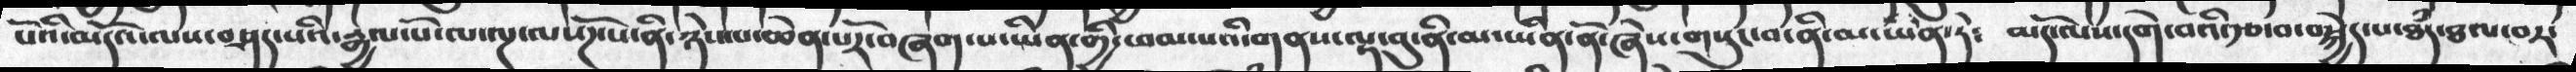པོའི་མདོ་ལས་བཤད་པའི་རྒྱལ་པོ་ལ་ལྔ་ལ་སོཌ་པ་ནི་ཉེས་པ་ཆེན་པོར་བཞག་པ་ཡིན་གྱི་ཕམ་པའི་གནས་ལྟ་བུ་ནི་མ་ཡིན་ནོ་ཞེས་གསུང་བ་ནི་མ་ཡིན་ཏེ༴   མདོ་ལས་དགེ་བའི་རྩ་བ་བསྐྱེད་པ་ཐྃད་ཐལ་བར་
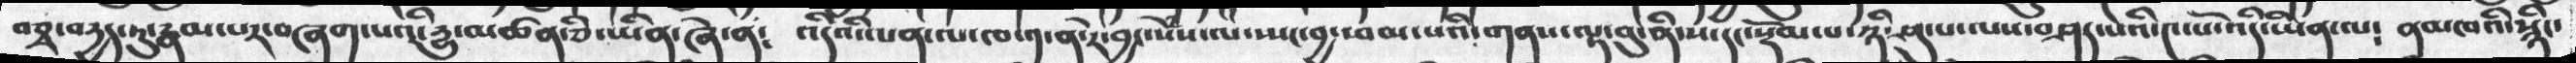བཅྭ་བདྱད་ཏུ་རྣམ་པར་བཞག་པའི་དྱུ་མཚན་ཅི་ཡིན་ཞེ་ན༴ འདིའི་ལན་ལ་ཁ་༡་ན་རེ་བྱང་སེཾས་ལ་ཡང་བྱ་ཕམ་པའི་གནས་ལྟ་བུ་ནི་ས་དང་སྡོམ་པ་ཉི་ཤུ་པ་ལས་བཤད་པའི་༤་པོ་འདི་ཡིན་ལ༴ ནམཁའི་སྙིང་
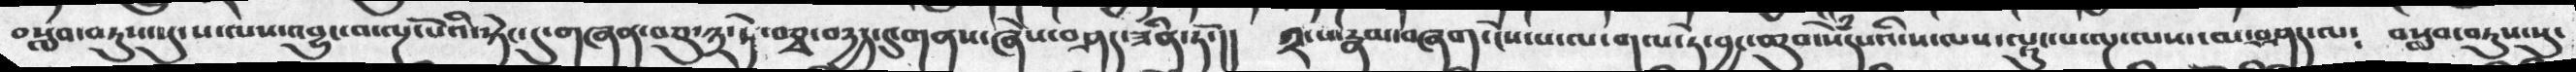བསླབ་བཏུས་སུ་པ་ལས་འབྱུང་བ་ལྔ་པོའི་སྟེང་དུ་གཞན་བཅུ་༣་ཏེ་བཅྭ་བརྱད་དུ་གནས་ཞེས་བཤད་ཟིན་ཏོ་།།  ༢་པ་རྣམ་བཞག་ངེས་པ་ལ་གལ་ཏེ་བྱང་ཆུབ་སེཾདཔའི་ས་ལས་ལྟུང་པ་ལྔ་ལས་མ་བཤད་ལ༴  བསླབ་བཏུས་སུ་
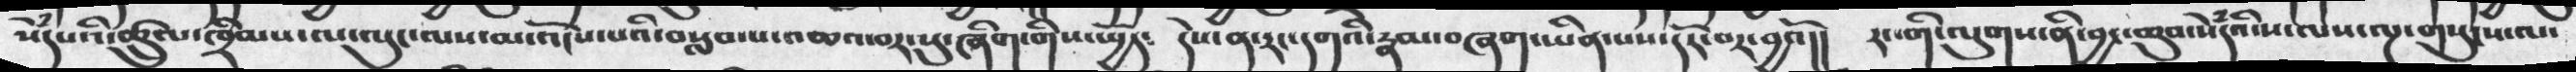སེཾདཔའི་ཚྲུལ་ཁྲིམས་ལ་ལུང་ལས་མ་འོངས་པའི་བསླབ་པ་འཆའ་བར་སུ་ཞིག་གིས་སྤྱོད༴ དེས་ན་རང་དགའི་རྣམ་བཞག་ཡིན་པས་དོར་བར་བྱའོ།། རང་གི་ལུགས་ནི་བྱང་ཆུབ་སེཾདའི་ས་ལས་ལྔ་གསུངས་ལ་
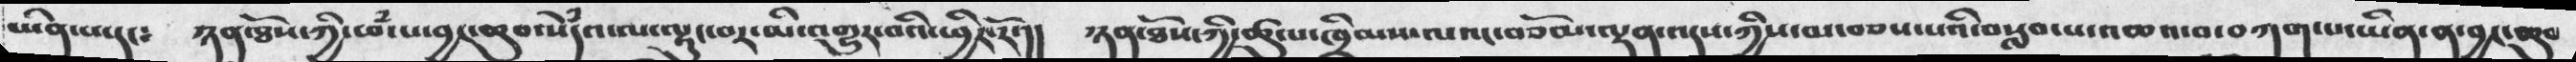ཡིན་པ་དང༴ ཉན་ཐོས་ཀྱི་ཕཾ་པ་བྱང་ཆུབ་སེཾདའ་ལ་ལྟུང་བར་མི་འགྱུར་བའི་ཕྱིར་རོ་།། ཉན་ཐོས་ཀྱི་ཚུལ་ཁྲིམས་ལའང་བཅོམ་ལྡན་འདས་ཀྱིས་མ་བཅས་པའི་བསླབ་པ་འཆའ་བ་བཀག་པ་ཡིན་ན་བྱང་ཆུབ
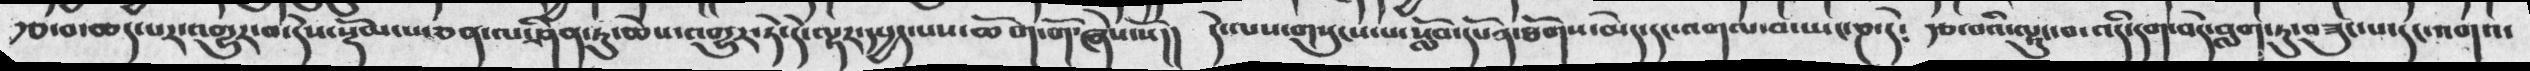རྩ་བ་ཆད་པར་འགྱུར་བ་དེས་སྡོམ་པ་ཅན་ལ་ཤིན་ཏུ་ཆེས་འགྱུར་ཏེ་དེ་ལྟར་དཔྱད་པས་ཆོག་གོ་ཞེས་སོ།། དེ་ལས་གསུངས་པ་སློབ་དཔོན་ཐོགས་མེད་དང་འགལ་བ་ཡང་ཎ་དེ༴ རྩ་བའི་ལྟུང་བ་འདི་དག་བདེ་བླག་ཏུ་བཟུང་པ་དང་འགའ་
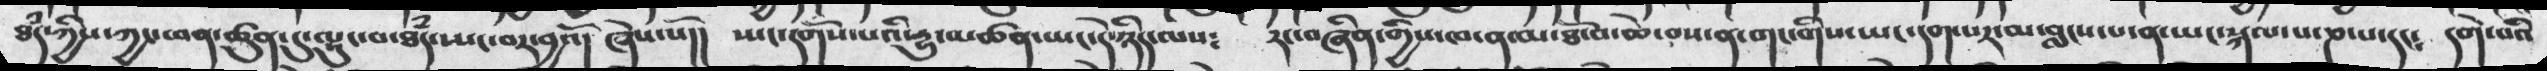ཐཾད་ཀྱིས་ཀྱང་ཕན་ཚུན་དུ་ལྟུང་བ་ཐཾདསྤང་བར་བྱའོ། ཞེས་སོ།། ཡང་དགོས་པའི་དྱུ་མཚན་ཡང་དེ་ཉིད་ལས༴ རང་བཞིན་གྱིས་ཁ་ན་མ་ཐོ་བ་ཆེ་བས་ན་གང་གིས་ཡང་དག་པར་མ་བླངས་པ་ན་ཡང་སྐལ་པ་ཎ་པ་དང༴ དགེ་བའི
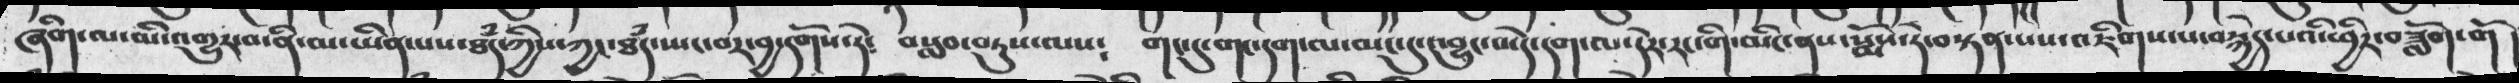ཞིག་ལ་མི་འགྱུར་བ་ནི་མ་ཡིན་པས་ཐཾད་ཀྱིས་ཀྱང་ཐཾད་སྤང་བར་བྱ་དགོས་ཏེ༴ བསླབ་བཏུས་ལས༴ གང་དུ་གང་དག་ལ་མང་དུ་འབྱུང་བ་དེ་དག་ལ་དེར་རང་གི་མིང་ནས་སྨོས་ཏེ་བསྟན་པས་འཇིགས་པ་བསྐྱེད་པའི་ཕྱིར་བཟློག་གོ
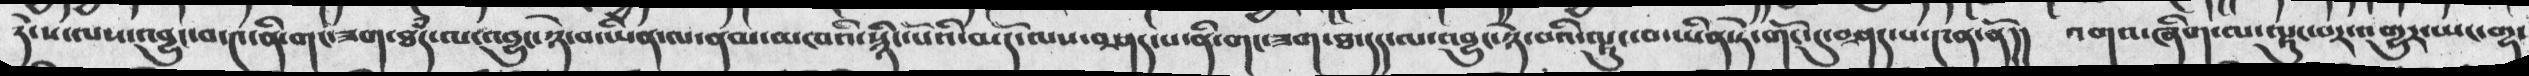དེ་ས་ལས་འབྱུང་བ་༤་ནི་གང་ཟག་ཐཾད་ལ་འབྱུང་ཉེ་བ་ཡིན་ལ་ནམ་མཁའི་སྙིང་པོའི་མདོ་ལས་བཤད་པ་ནི་གང་ཟག་ཐ་དད་ལ་འབྱུང་ཉེ་བའི་ལྟུང་བ་ཡིན་ཏེ་གོང་དུ་བཤད་པ་༤ན་ནོ།། འགའ་ཞིག་ལ་ལྟུང་བར་འགྱུར་ཡང་གྷ་
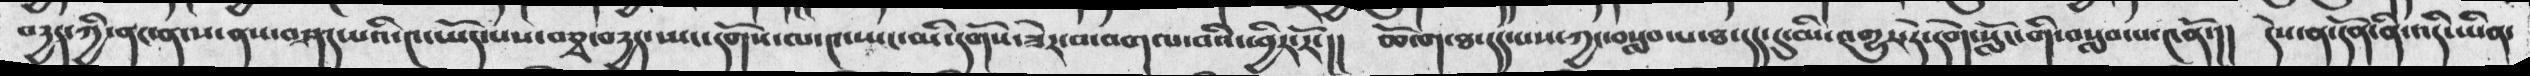བདྱད་ཀྱི་ནང་ནས་ས་ནས་བཤད་པའི་༤་ཡོད་པས་བཅྭ་བདྱད་ཡང་དགོས་ལ་༤་ཡང་མི་དགོས་ཟེར་བ་འགལ་བའི་ཕྱིར་རོ་།། ཆོ་ག་ཐ་དད་དུ་མི་འགྱུར་ཏེ་དགེ་སློང་གི་བསླབ་པ་༤ནོ་།། དེས་ན་དོན་ནི་འདི་ཡིན་
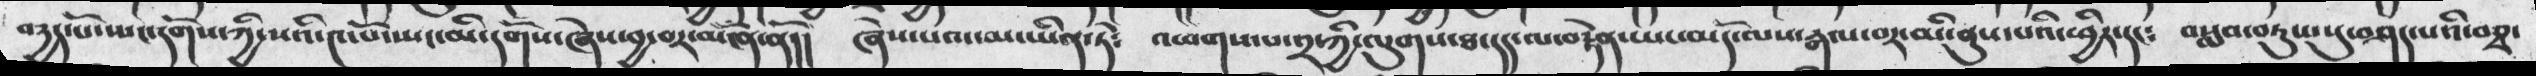བདྱད་པོ་ཡང་དགོས་ཀྱི་སའི་༤་པོ་ཡང་མི་དགོས་ཞེས་བྱ་བར་མངོན་ནོ།། ཞེས་པའང་མ་ཡིན་ཏེ༴  འཕགས་པ་༢་ཀྱི་ལུགས་ཐ་དད་ལ་བརྟེན་ཡང་མདོ་ལས་རྒལ་བར་མི་ནུས་པའི་ཕྱིར་དང༴  བསླབ་བཏུས་སུ་བཤད་པའི་བཅྭ་
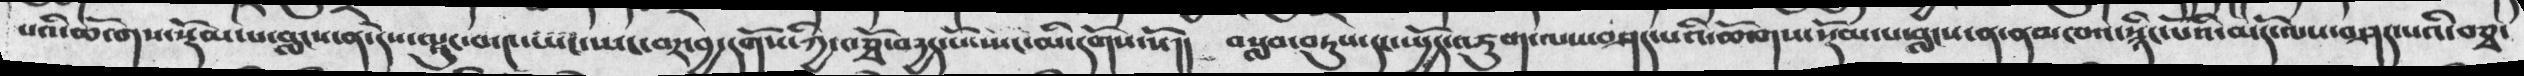པའི་ཆོ་གས་སྡོམ་པ་བླངས་ན་དེས་ལྟུང་བ་༤་ཡང་ཡང་བར་བྱ་དགོས་ཀྱི་བཅྭོ་བདྱད་པོ་ཡང་མི་དགོས་སོ།། བསླབ་བཏུས་དང་སྤྱོད་འཇུག་ལས་བཤད་པའི་ཆོ་གས་སྡོམ་པ་བླངས་ན་ནམཁའི་སྙིང་པོའི་མདོ་ལས་བཤད་པའི་བཅྭ་
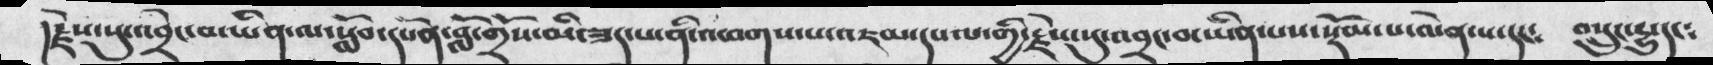།རྗེས་སུ་འབྲེང་བ་ཡིན་ལ་སློབ་དཔོན་བློ་གྲོས་མི་ཟད་པ་ནི་འཕགས་པ་འཇམ་དཔལ་གྱི་རྗེས་སུ་འབྲང་བ་ཡིན་པས་སྡོམ་པ་ལེན་པ་དང༴ བསྲུང་དྱུ་དང༴
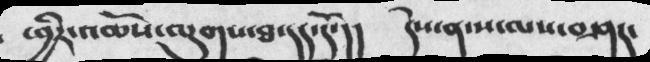ཕྱིར་ཆོས་ལུགས་ཐ་དད་དོ་།། དེས་ན་ས་ལས་བཤད་
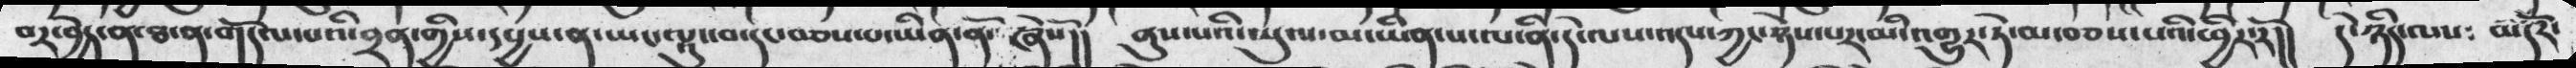བར་བྱེད་ན་ཐ་ན་གདོལ་པའི་བྲན་གྱིས་དཔྱས་ན་ཡང་ལྟུང་བ་དང་བཅས་པ་ཡིན་ནོ་ཞེསོ།། ནུས་པའི་ཡུལ་མ་ཡིན་པ་ལ་ནི་དེ་ལས་འདས་ཀྱང་ཉེས་པར་མི་འགྱུར་ཏེ་མ་བཅས་པའི་ཕྱིར་རོ།། དེ་ཉིད་ལས༴ མདོར་
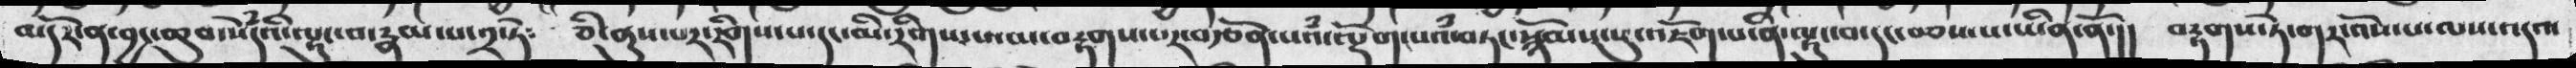མདོར་ན་བྱང་ཆུབ་སེཾདའི་ལྟུང་བ་རྣམ་པ་༢་ཏེ༴  ཅི་ནུས་པར་རིགས་པ་དང་མི་རིགས་པ་མ་བརྟགས་པར་བརྩོན་པའཾ་བཏང་སྙོམས་སུ་འཇོག་པ་ནི་ལྟུང་བ་དང་བཅས་པ་ཡིན་ནོ་།།  བརྟགས་ཏེ་གར་འོས་པ་ལས་འདའ་
